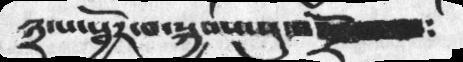༣་པ་སྦྱོར་བ་སྐྱབས་སུ་འགྲོ༴
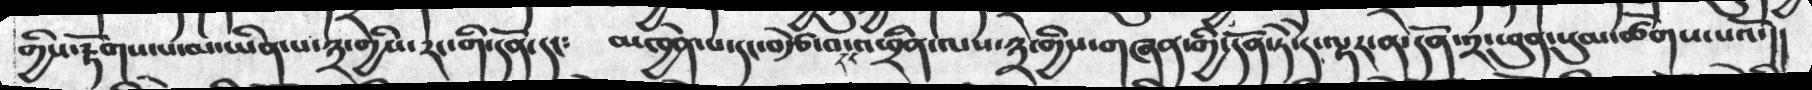གྱིས་རྟོགས་པ་མ་ཡིན་པ་༣་གྱིས་རང་གི་དོན་དང༴   མཁྱེན་པ་དང་བརྩེ་བ་དང་འཕྲིན་ལས་༣་གྱིས་གཞན་གྱི་དོན་ཏེ་དེ་ལྟར་ན་དོན་༢་ཕུན་སུམ་ཚོགས་པའོ་།།
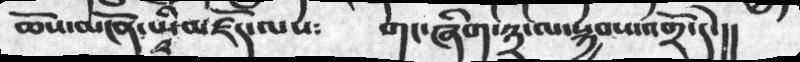ཆོས་མངོན་པའི་མཛོད་ལས༴   གང་ཞིག་༣་ལ་སྐྱབས་འགྲོ་དེ་།།
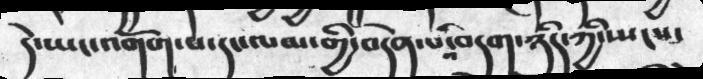དེ་ཡང་འགོག་པ་དང་ལམ་གྱི་བདེན་པའི་བདག་ཉིད་ཀྱི་སྤངས་
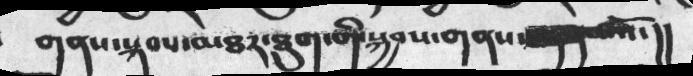གནས་སྐབས་མཐར་ཐུག་གི་སྐྱབས་གནས་བསྟན་པའོ་།།
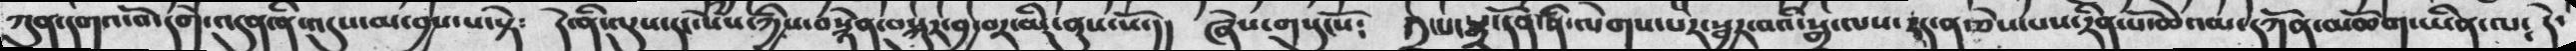ཀུན་དགའ་བོ་དགེ་འདུན་ནི་འདུས་མ་བྱས་པ་སྟེ༴   དེ་ནི་ལུས་དང་སེཾས་ཀྱིས་བསྙེན་བསྐུར་བྱ་བར་མི་ནུས་སོ་།། ཞེས་གསུངསོ༴   ༢་པ་སྒྲ་དོན་ནི་ལེགས་པར་སྦྱར་བའི་སྒྲ་ལས་རད་ན་ཅེས་པས་རིན་པོ་ཆེའམ་དཀོན་མཆོག་ཡིན་ལ༴  དེ་
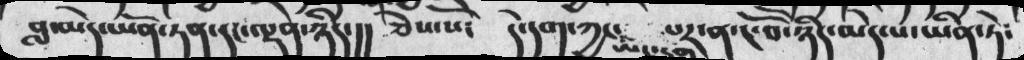བླ་མེད་ཡོན་ཏན་དང་ལྡན་ཉིད་།། ཅེས་སོ༴   དེ་དག་ཀྱང་ཡང་དག་པར་ན་ངོ་བོ་ཉིད་མེད་པ་ཡིན་ཏེ༴
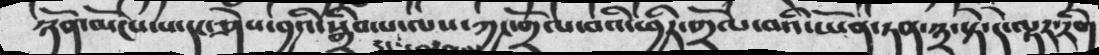ཉོན་མོངས་པ་དང་ཤེས་བྱའི་སྒྲིབ་པ་ལས་ཀྱང་གྲོལ་བའི་ཕྱིར་གྲོལ་བའི་ཡོན་ཏན་༣་སྟེ་དེ་ལྟར་རིག
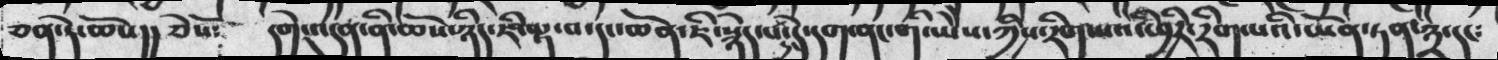ཅན་དེ་ཆོས།།  ཅེས་སོ༴ དགེ་འདུན་ནི་ཆོས་ཉིད་ཇི་ལྟ་བ་དང་ཆོན་ཇི་སྙེད་པ་དང་དེ་དག་ནང་གི་ཡེེས་ཀྱིས་རིག་པའི་ཕྱིར་རིག་པའི་ཡོན་ཏན་༣་དང༴
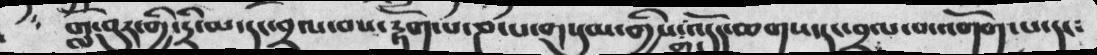གློ་བུར་གྱི་དྲི་མ་དང་བྲལ་བས་རྟོག་པ་ཎ་པ་གསུམ་གྱིས་གང་འདོད་ཆགས་དང་བྲལ་པ་འགོག་པ་དང༴
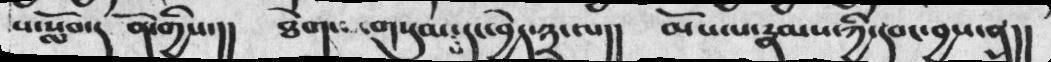ས་སློབ་དཔོན་གྱིས་།།   ཐེག་པ་གསུམས་དང་བྱེད་༣་ལ།།  མོས་པ་རྣམས་ཀྱི་དབང་བྱས་ན།།
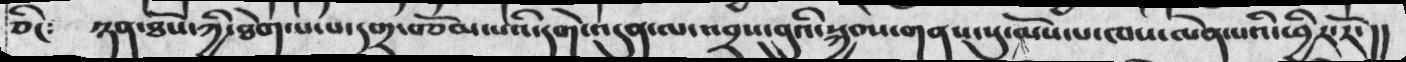ཅེང༴   ཉན་ཐོས་ཀྱི་ཐེག་པ་པ་དགྲ་བཅོམ་པའི་དགེ་འདུན་ལ་འབྲས་བུའི་སྐྱབས་གནས་སུ་མོས་པ་ཁས་ལེན་པའི་ཕྱིར་རོ་།།
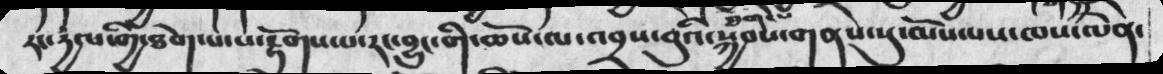རང་དྱལ་གྱི་ཐེག་པ་པ་རྟོགས་པ་རང་བྱུང་གི་ཆོས་ལ་འབྲས་བུའི་ཐེག་པ་སྐྱབས་གནས་སུ་མོས་པས་ཁས་ལེན་
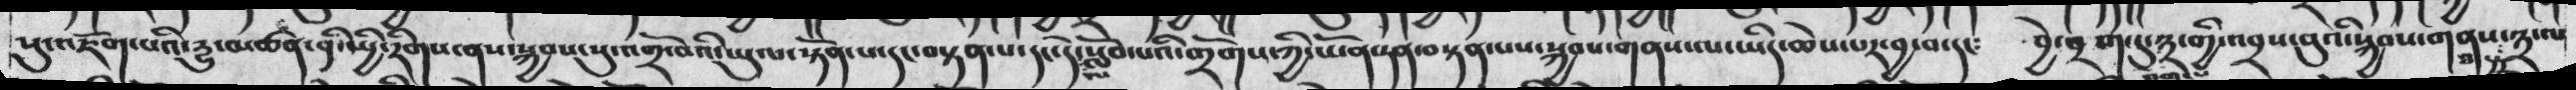སུ་འཇོག་པའི་རྱུ་མཚན་ནི་ཡྱི་རིགས་ནས་སྐྱབས་སུ་འགྲོ་བའི་ཡུལ་སྟོན་པ་དང་བསྟན་པ་དང་དེ་སློབ་པའི་གྲོགས་ཀྱི་ཡོན་ཏན་བསྟན་པས་སྐྱབས་གནས་ལ་ཡིད་ཆེས་པར་བྱ་བ་དང༴   བྱེ་བྲག་དུ་༣་གྱི་འབྲས་བུའི་སྐྱབས་གནས་གསུཾ་་༣་ལ
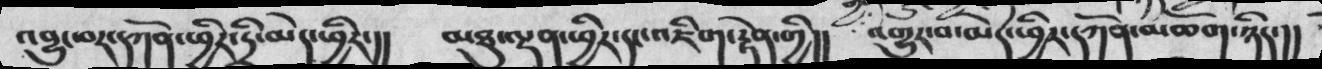འབྱུང་བར་དཀོན་ཕྱིར་དྲི་མེད་ཕྱིར་།།    མཐུན་ལྡན་ཕྱིར་དང་འཇིག་རྟེན་གྱི།།   འགྱུར་བ་མེད་ཕྱིར་དཀོན་མཆོག་ཉིད་།།
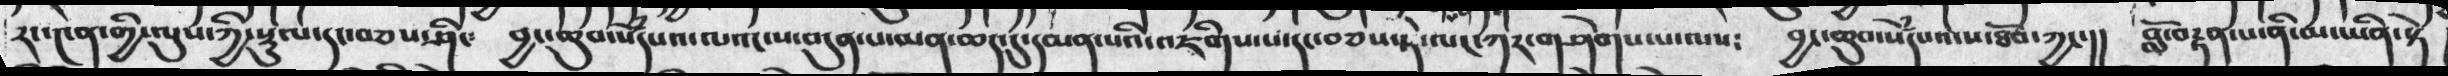རང་༤ན་གྱི་ལུས་ཀྱི་སྡུལ་རང་བཅས་ཤིང་   བྱང་ཆུབ་སེཾདཔའ་ལའང་ས་བདུན་པ་མན་ཆད་དུ་དམན་པའི་འཇིགས་པ་དང་བཅས་ཏེ་ལང་ཀར་གཤེགས་པ་ལས༴  བྱང་ཆུབ་སེཾདཔའ་ས་ཐོབ་ཀྱང་།།   བློ་བརྟན་པ་ནི་མ་ཡིན་སྟེ་
